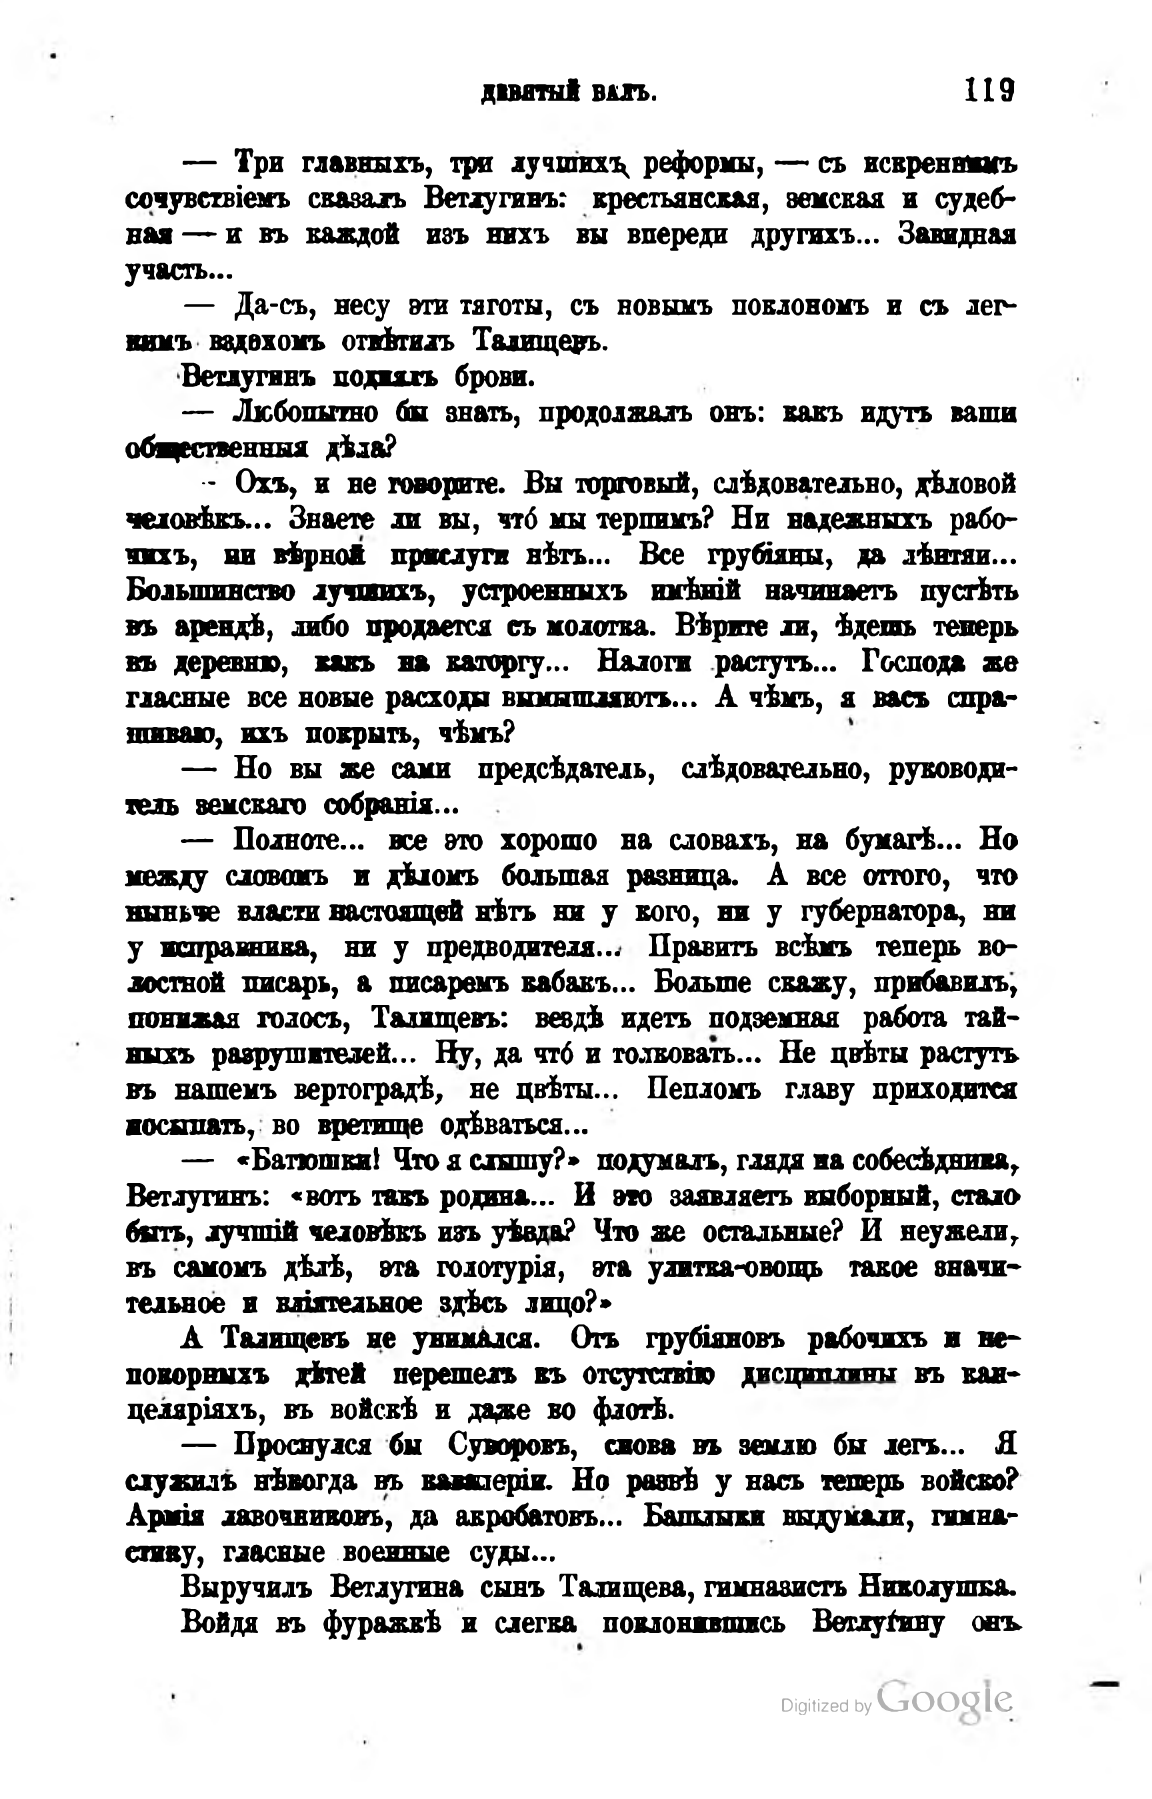ДЕВЯТЫЙ ВАЛЪ.                         119
— Три главныхъ, три лучшихъ, реформы, — съ искреннимъ сочувствіемъ сказалъ Ветлугинъ: крестьянская, земская и судебная — и въ каждой изъ нихъ вы впереди другихъ... Завидная участь...
— Да-съ, несу эти тяготы, съ новымъ поклономъ и съ легкимъ вздохомъ отвѣтилъ Талищевъ.
Ветлугинъ поднялъ брови.
— Любопытно бы знать, продолжалъ онъ: какъ идутъ ваши общественныя дѣла?
— Охъ, и не говорите. Вы торговый, слѣдовательно, дѣловой человѣкъ... Знаете ли вы, что мы терпимъ? Ни надежныхъ рабочихъ, ни вѣрной прислуги нѣтъ... Все грубіяны, да лѣнтяи… Большинство лучшихъ, устроенныхъ имѣній начинаетъ пустѣть въ арендѣ, либо продается съ молотка. Вѣрите ли, ѣдешь теперь въ деревню, какъ на каторгу... Налоги растутъ... Господа же гласные все новые расходы вымышляютъ... А чѣмъ, я васъ спрашиваю, ихъ покрыть, чѣмъ?
— Но вы же сами предсѣдатель, слѣдовательно, руководитель земскаго собранія...
— Полноте... все это хорошо на словахъ, на бумагѣ... Но между словомъ и дѣломъ большая разница. А все оттого, что ныньче власти настоящей нѣть ни у кого, ни у губернатора, ни у исправника, ни у предводителя... Правитъ всѣмъ теперь волостной писарь, а писаремъ кабакъ... Больше скажу, прибавилъ, понижая голосъ, Талищевъ: вездѣ идетъ подземная работа тайныхъ разрушителей... Ну, да что и толковать... Не цвѣты растутъ въ нашемъ вертоградѣ, не цвѣты... Пепломъ главу приходится посыпать, во вретище одѣваться...
— «Батюшки! Что я слышу?» подумалъ, глядя на собесѣдника, Ветлугинъ: «вотъ такъ родина... И это заявляетъ выборный, стало быть, лучшій человѣкъ изъ уѣзда? Что же остальные? И неужели, въ самомъ дѣлѣ, эта голотурія, эта улитка-овощь такое значительное и вліятельное здѣсь лицо?»
А Талищевъ не унимался. Отъ грубіяновъ рабочихъ и непокорныхъ дѣтей перешелъ къ отсутствію дисциплины въ канцеляріяхъ, въ войскѣ и даже во флотѣ.
— Проснулся бы Суворовъ, снова въ землю бы легъ... Я служилъ нѣкогда въ кавалеріи. Но развѣ у насъ теперь войско? Армія лавочниковъ, да акробатовъ... Башлыки выдумали, гимнастику, гласные военные суды...
Выручилъ Ветлугина сынъ Талищева, гимназистъ Николушка.
Войдя въ фуражкѣ и слегка поклонившись Ветлугину онъ
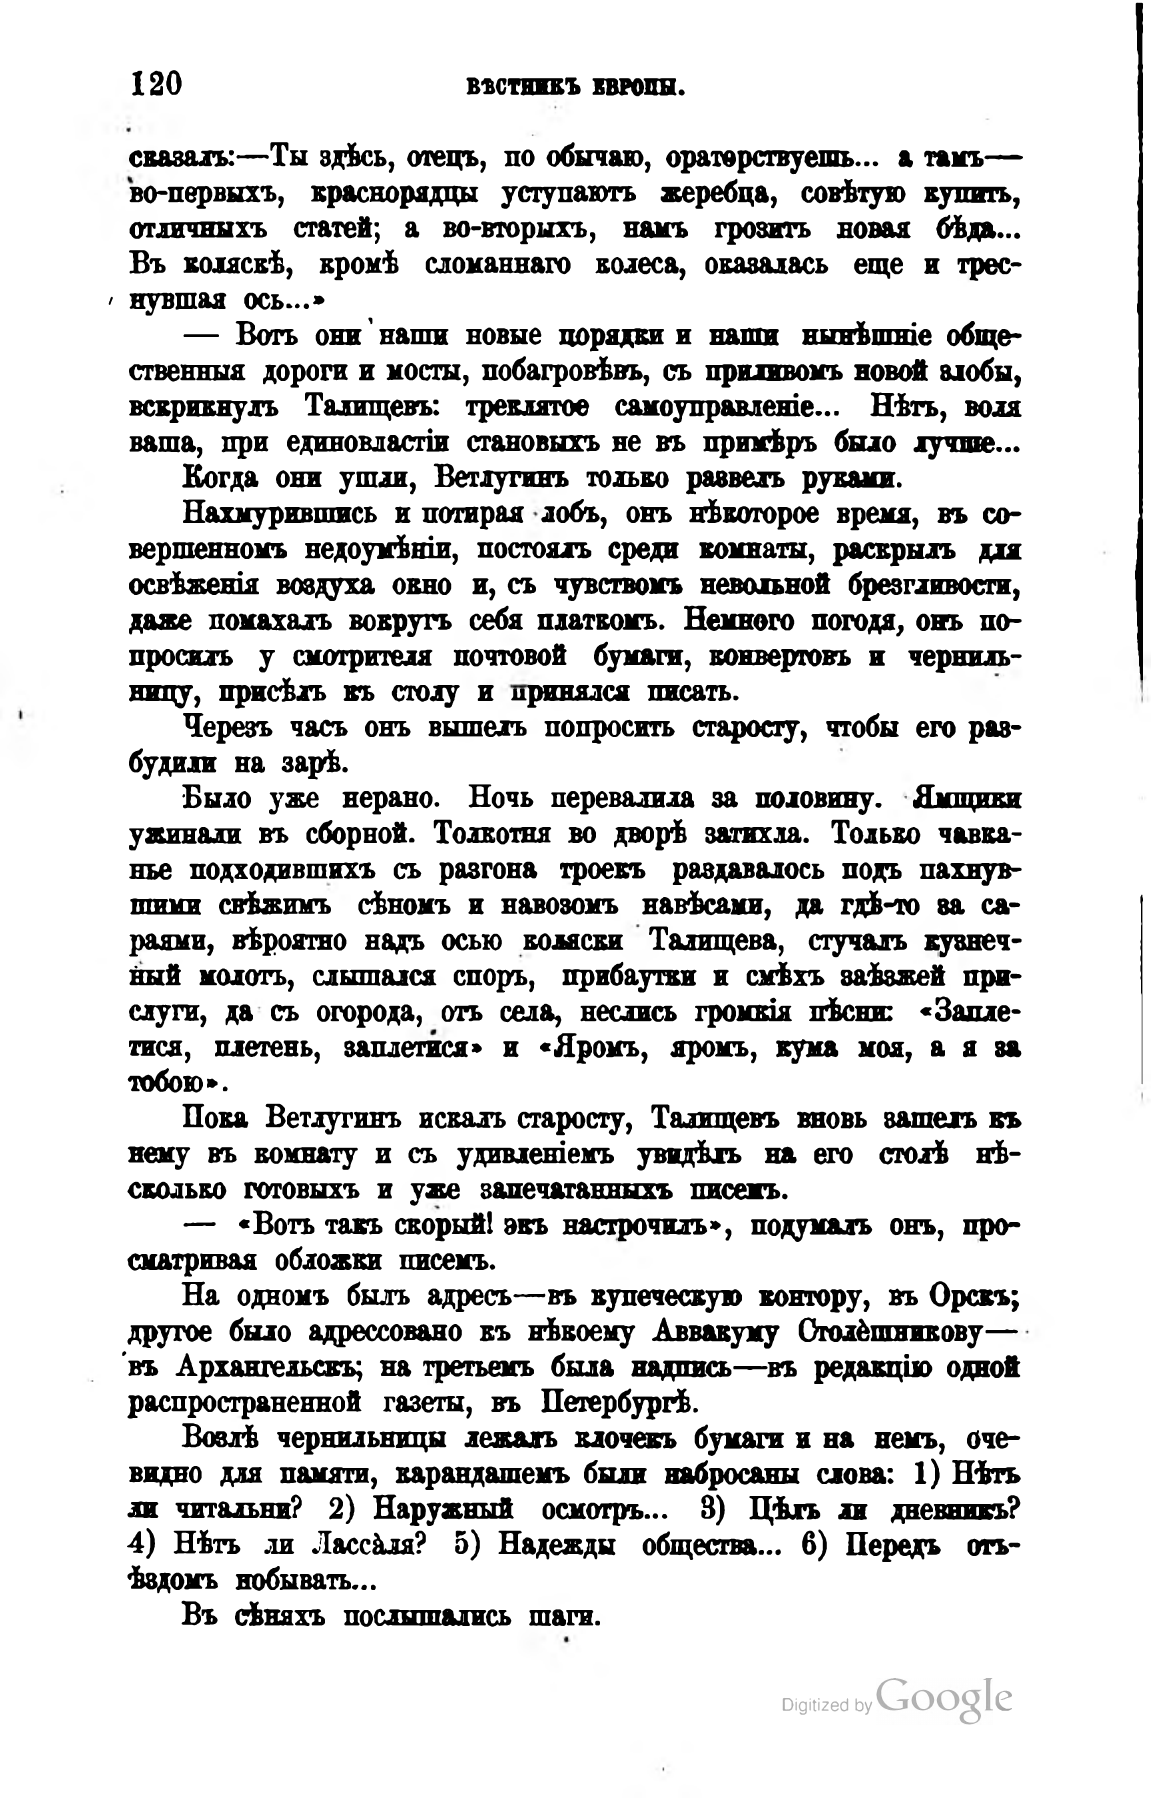120                     ВѢСТНИКЪ ЕВРОПЫ.
сказалъ: — Ты здѣсь, отецъ, по обычаю, ораторствуешь... а тамъ — во-первыхъ, краснорядцы уступаютъ жеребца, совѣтую купить, отличныхъ статей; а во-вторыхъ, намъ грозитъ новая бѣда… Въ коляскѣ, кромѣ сломаннаго колеса, оказалась еще и треснувшая ось...»
— Вотъ они наши новые порядки и наши нынѣшніе общественныя дороги и мосты, побагровѣвъ, съ приливомъ новой злобы, вскрикнулъ Талищевъ: треклятое самоуправленіе... Нѣтъ, воля ваша, при единовластіи становыхъ не въ примѣръ было лучше...
Когда они ушли, Ветлугинъ только развелъ руками.
Нахмурившись и потирая лобъ, онъ нѣкоторое время, въ совершенномъ недоумѣніи, постоялъ среди комнаты, раскрылъ для освѣженія воздуха окно и, съ чувствомъ невольной брезгливости, даже помахалъ вокругъ себя платкомъ. Немного погодя, онъ попросилъ у смотрителя почтовой бумаги, конвертовъ и чернильницу, присѣлъ къ столу и принялся писать.
Черезъ часъ онъ вышелъ попросить старосту, чтобы его разбудили на зарѣ.
Было уже нерано. Ночь перевалила за половину. Ямщики ужинали въ сборной. Толкотня во дворѣ затихла. Только чавканье подходившихъ съ разгона троекъ раздавалось подъ пахнувшими свѣжимъ сѣномъ и навозомъ навѣсами, да гдѣ-то за сараями, вѣроятно надъ осью коляски Талищева, стучалъ кузнечный молоть, слышался споръ, прибаутки и смѣхъ заѣзжей прислуги, да съ огорода, отъ села, неслись громкія пѣсни: «Заплетися, плетень, заплетися» и «Яромъ, яромъ, кума моя, а я за тобою».
Пока Ветлугинъ искалъ старосту, Талищевъ вновь зашелъ къ нему въ комнату и съ удивленіемъ увидѣлъ на его столѣ нѣсколько готовыхъ и уже запечатанныхъ писемъ.
— «Вотъ такъ скорый! экъ настрочилъ», подумалъ онъ, просматривая обложки писемъ.
На одномъ былъ адресъ — въ купеческую контору, въ Орскъ; другое было адресовано къ нѣкоему Аввакуму Столешникову — въ Архангельскъ; на третьемъ была надпись — въ редакцію одной распространенной газеты, въ Петербургѣ.
Возлѣ чернильницы лежалъ клочекъ бумаги и на немъ, очевидно для памяти, карандашемъ были набросаны слова: 1) Нѣть ли читальни? 2) Наружный осмотръ... 3) Цѣлъ ли дневникъ? 4) Нѣтъ ли Лассаля? 5) Надежды общества... 6) Передъ отъѣздомъ побывать...
Въ сѣняхъ послышались шаги.
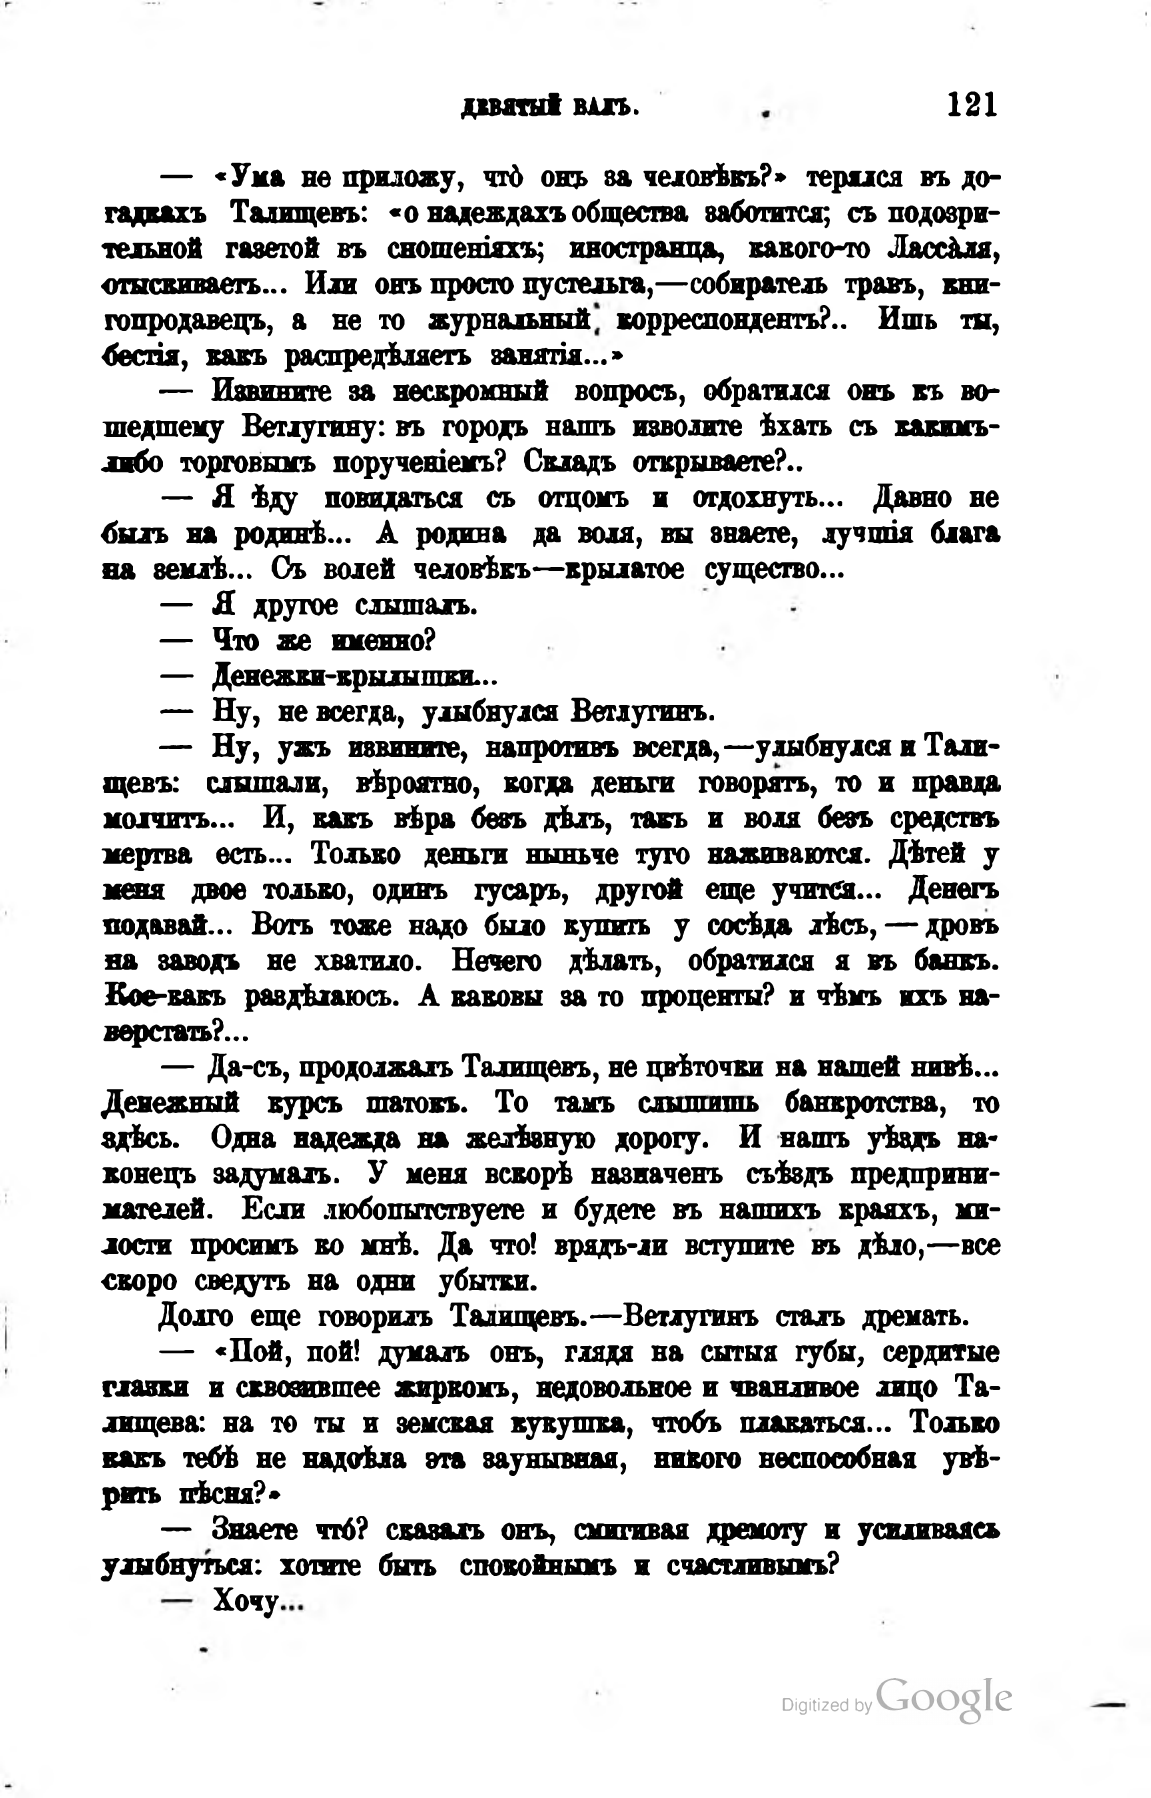ДЕВЯТЫЙ ВАЛЪ.                        121
— «Ума не приложу, что онъ за человѣкъ?» терялся въ догадкахъ Талищевъ: «о надеждахъ общества заботится; съ подозрительной газетой въ сношеніяхъ; иностранца, какого-то Лассаля, отыскиваетъ... Или онъ просто пустельга, — собиратель травъ, книгопродавецъ, а не то журнальный корреспондентъ?.. Ишь ты, бестія, какъ распредѣляетъ занятія...»
— Извините за нескромный вопросъ, обратился онъ къ вошедшему Ветлугину: въ городъ нашъ изволите ѣхать съ какимъ-либо торговымъ порученіемъ? Складъ открываете?..
— Я ѣду повидаться съ отцомъ и отдохнуть... Давно не былъ на родинѣ... А родина да воля, вы знаете, лучшія блага на землѣ... Съ волей человѣкъ — крылатое существо...
— Я другое слышалъ.
— Что же именно?
— Денежки-крылышки...
— Ну, не всегда, улыбнулся Ветлугинъ.
— Ну, ужъ извините, напротивъ всегда, — улыбнулся и Талищевъ: слышали, вѣроятно, когда деньги говорятъ, то и правда молчитъ... И, какъ вѣра безъ дѣлъ, такъ и воля безъ средствъ мертва есть... Только деньги ныньче туго наживаются. Дѣтей у меня двое только, одинъ гусаръ, другой еще учится... Денегъ подавай... Вотъ тоже надо было купить у сосѣда лѣсъ, — дровъ на заводъ не хватило. Нечего дѣлать, обратился я въ банкъ. Кое-какъ раздѣлаюсь. А каковы за то проценты? и чѣмъ ихъ наверстать?...
— Да-съ, продолжалъ Талищевъ, не цвѣточки на нашей нивѣ… Денежный курсъ шатокъ. То тамъ слышишь банкротства, то здѣсь. Одна надежда на желѣзную дорогу. И нашъ уѣздъ наконецъ задумалъ. У меня вскорѣ назначенъ съѣздъ предпринимателей. Если любопытствуете и будете въ нашихъ краяхъ, милости просимъ ко мнѣ. Да что! врядъ-ли вступите въ дѣло, — все скоро сведутъ на одни убытки.
Долго еще говорилъ Талищевъ. — Ветлугинъ сталъ дремать.
— «Пой, ной! думалъ онъ, глядя на сытыя губы, сердитые глазки и сквозившее жиркомъ, недовольное и чванливое лицо Талищева: на то ты и земская кукушка, чтобъ плакаться... Только какъ тебѣ не надоѣла эта заунывная, никого неспособная увѣрить пѣсня?»
— Знаете что? сказалъ онъ, смигивая дремоту и усиливаясь улыбнуться: хотите быть спокойнымъ и счастливымъ?
— Хочу…